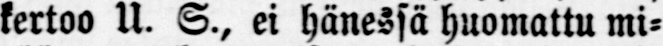kertoo U. S., ei hänessä huomattu mi-
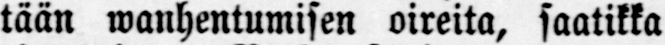tään wanhentumisen oireita, saatikka
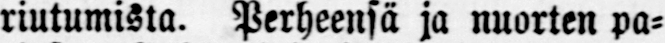riutumista. Perheensä ja nuorten pa-
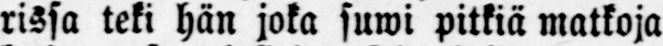rissa teki hän joka suwi pitkiä matkoja
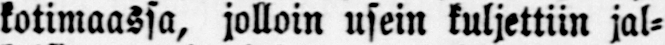kotimaassa, jolloin usein kuljettiin jal-
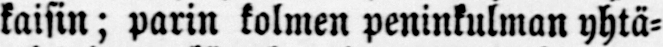kaisin; parin kolmen peninkulman yhtä-
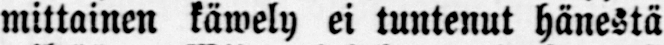mittainen käwely ei tuntenut hänestä
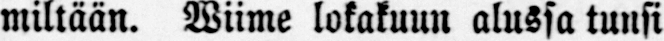miltään. Wiime lokakuun alussa tunsi
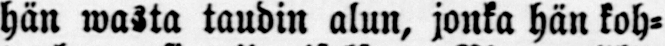hän wasta taudin alun, jonka hän koh-
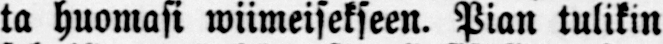ta huomasi wiimeisekseen. Pian tulikin
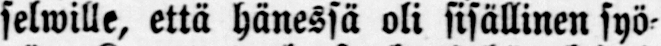selwille, että hänessä oli sisällinen syö-
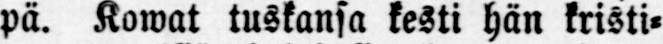pä. Kowat tuskansa kesti hän kristi-
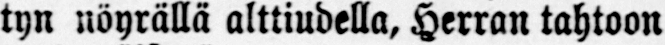tyn nöyrällä alttiudella. Herran tahtoon
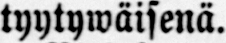tyytywäisenä.
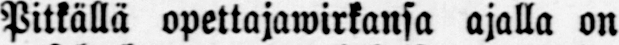Pitkällä opettajawirkansa ajalla on
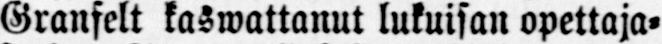Granfelt kaswattanut lukuisan opettaja-
